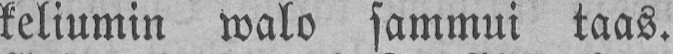keliumin walo sammui taas.
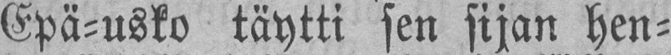Epä-usko täytti sen sijan hen-
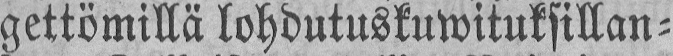gettömillä lohdutuskuwituksillan-
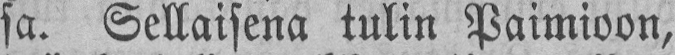sa. Sellaisena tulin Paimioon,
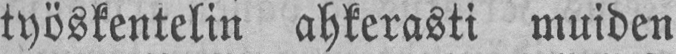työskentelin ahkerasti muiden
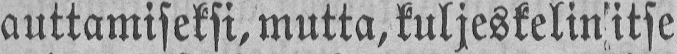auttamiseksi, mutta, kuljeskelinitse
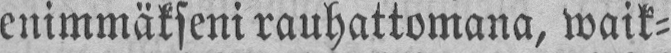enimmäkseni rauhattomana, waik-
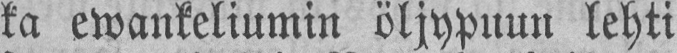ka ewankeliumin öljypuun lehti
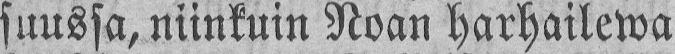suussa, niinkuin Noan harhailewa
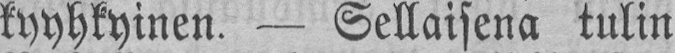kyyhkyinen. — Sellaisena tulin
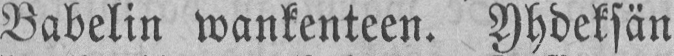Babelin wankenteen. Yhdeksän
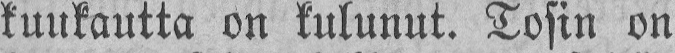kuukautta on kulunut. Tosin on
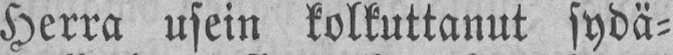Herra usein kolkuttanut sydä-
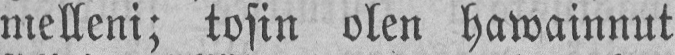melleni; tosin olen hawainnut
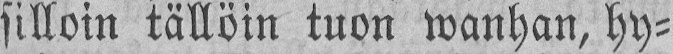silloin tällöin tuon wanhan, hy-
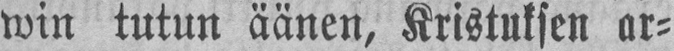win tutun äänen, Kristuksen ar-
